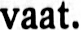vaat.
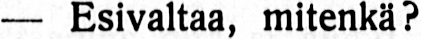— Esivaltaa, mitenkä?
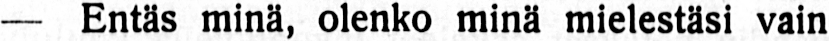— Entäs minä, olenko minä mielestäsi vain
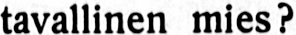tavallinen mies?
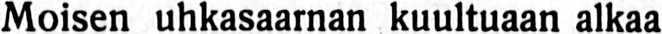Moisen uhkasaarnan kuultuaan alkaa syyttäjän
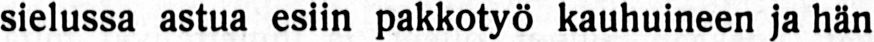sielussa astua esiin pakkotyö kauhuineen ja hän
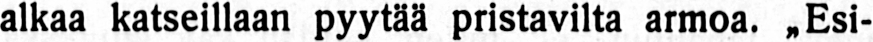alkaa katseillaan pyytää pristavilta armoa. „Esi-
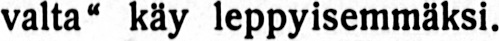valta" käy leppyisemmäksi.
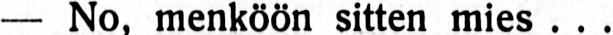— No, menköön sitten mies . . .
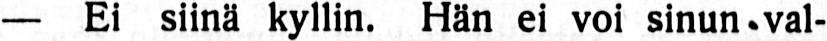— Ei siinä kyllin. Hän ei voi sinun val-
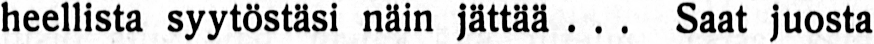heellista syytöstäsi näin jättää . . . Saat juosta
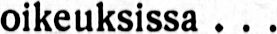oikeuksissa . . .
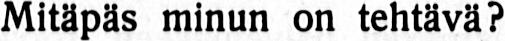Mitäpäs minun on tehtävä?
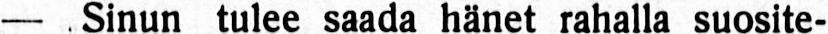— Sinun tulee saada hänet rahalla suosite-
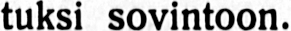tuksi sovintoon.
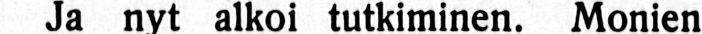Ja nyt alkoi tutkiminen. Monien lisäysten
